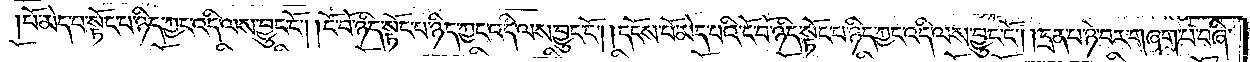པོ་མེད་པ་སྟོང་པ་ཉིད་ཀྱང་འདི་ལས་བྱུང་ངོ༌། །ངོ་བོ་ཉིད་སྟོང་པ་ཉིད་ཀྱང་འདི་ལས་བྱུང་ངོ༌། །དངོས་པོ་མེད་པའི་ངོ་བོ་ཉིད་སྟོང་པ་ཉིད་ཀྱང་འདི་ལས་བྱུང་ངོ༌། །དྲན་པ་ཉེ་བར་བཞག་པ་བཞི་
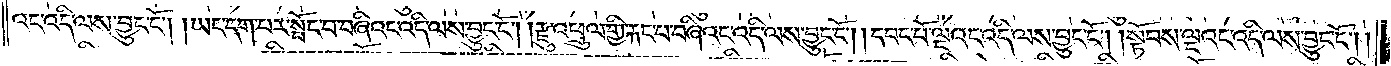འང་འདི་ལས་བྱུང་ངོ༌། །ཡང་དག་པར་སྤོང་བ་བཞིའང་འདི་ལས་བྱུང་ངོ༌། །རྫུ་འཕྲུལ་གྱི་རྐང་པ་བཞིའང་འདི་ལས་བྱུང་ངོ༌། །དབང་པོ་ལྔའང་འདི་ལས་བྱུང་ངོ༌། །སྟོབས་ལྔའང་འདི་ལས་བྱུང་ངོ༌། །
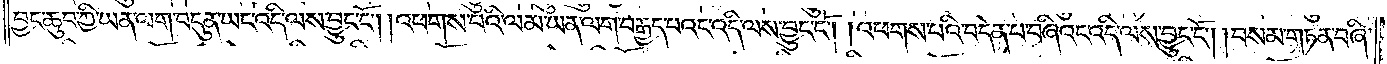བྱང་ཆུབ་ཀྱི་ཡན་ལག་བདུན་ཡང་འདི་ལས་བྱུང་ངོ༌། །འཕགས་པའི་ལམ་ཡན་ལག་བརྒྱད་པའང་འདི་ལས་བྱུང་ངོ༌། །འཕགས་པའི་བདེན་པ་བཞིའང་འདི་ལས་བྱུང་ངོ༌། །བསམ་གཏན་བཞི་
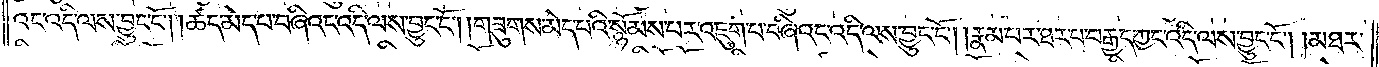འང་འདི་ལས་བྱུང་ངོ༌། །ཚད་མེད་པ་བཞིའང་འདི་ལས་བྱུང་ངོ༌། །གཟུགས་མེད་པའི་སྙོམས་པར་འཇུག་པ་བཞིའང་འདི་ལས་བྱུང་ངོ༌། །རྣམ་པར་ཐར་པ་བརྒྱད་ཀྱང་འདི་ལས་བྱུང་ངོ༌། །མཐར་
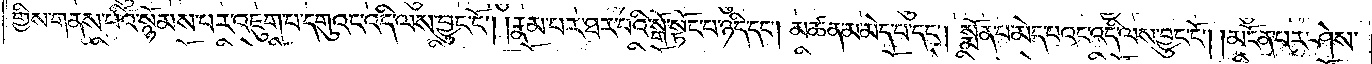གྱིས་གནས་པའི་སྙོམས་པར་འཇུག་པ་དགུའང་འདི་ལས་བྱུང་ངོ༌། །རྣམ་པར་ཐར་པའི་སྒོ་སྟོང་པ་ཉིད་དང༌། མཚན་མ་མེད་པ་དང༌། སྨོན་པ་མེད་པའང་འདི་ལས་བྱུང་ངོ༌། །མངོན་པར་ཤེས་
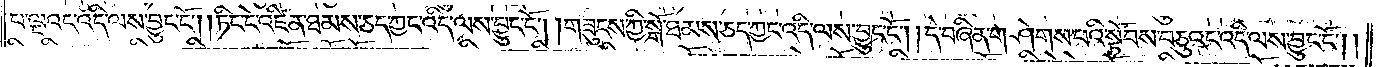པ་ལྔའང་འདི་ལས་བྱུང་ངོ༌། །ཏིང་ངེ་འཛིན་ཐམས་ཅད་ཀྱང་འདི་ལས་བྱུང་ངོ༌། །གཟུངས་ཀྱི་སྒོ་ཐམས་ཅད་ཀྱང་འདི་ལས་བྱུང་ངོ༌། །དེ་བཞིན་གཤེགས་པའི་སྟོབས་བཅུའང་འདི་ལས་བྱུང་ངོ༌། །
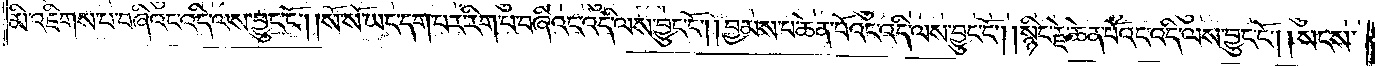མི་འཇིགས་པ་བཞིའང་འདི་ལས་བྱུང་ངོ༌། །སོ་སོ་ཡང་དག་པར་རིག་པ་བཞིའང་འདི་ལས་བྱུང་ངོ༌། །བྱམས་པ་ཆེན་པོའང་འདི་ལས་བྱུང་ངོ༌། །སྙིང་རྗེ་ཆེན་པོའང་འདི་ལས་བྱུང་ངོ༌། །སངས་
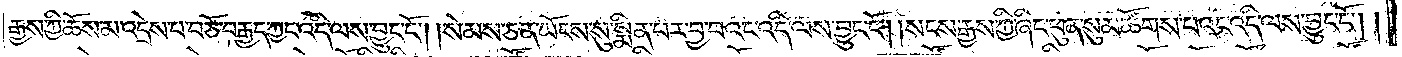རྒྱས་ཀྱི་ཆོས་མ་འདྲེས་པ་བཅོ་བརྒྱད་ཀྱང་འདི་ལས་བྱུང་ངོ༌། །སེམས་ཅན་ཡོངས་སུ་སྨིན་པར་བྱ་བའང་འདི་ལས་བྱུང་ངོ༌། །སངས་རྒྱས་ཀྱི་ཞིང་ཕུན་སུམ་ཚོགས་པའང་འདི་ལས་བྱུང་ངོ༌༎
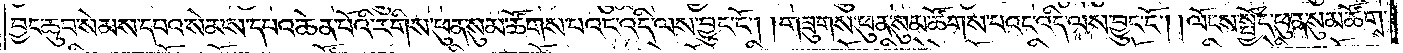བྱང་ཆུབ་སེམས་དཔའ་སེམས་དཔའ་ཆེན་པོའི་རིགས་ཕུན་སུམ་ཚོགས་པའང་འདི་ལས་བྱུང་ངོ༌། །གཟུགས་ཕུན་སུམ་ཚོགས་པའང་འདི་ལས་བྱུང་ངོ༌། །ལོངས་སྤྱོད་ཕུན་སུམ་ཚོགས་
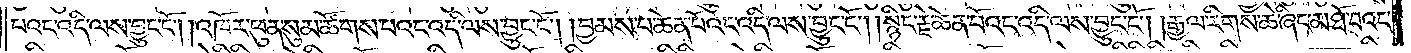པའང་འདི་ལས་བྱུང་ངོ༌། །འཁོར་ཕུན་སུམ་ཚོགས་པའང་འདི་ལས་བྱུང་ངོ༌། །བྱམས་པ་ཆེན་པོའང་འདི་ལས་བྱུང་ངོ༌། །སྙིང་རྗེ་ཆེན་པོའང་འདི་ལས་བྱུང་ངོ༌། །རྒྱལ་རིགས་ཆེ་ཞིང་མཐོ་བའང་
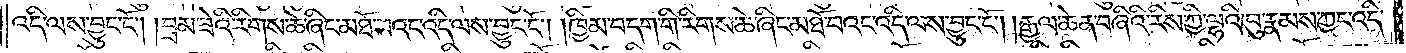འདི་ལས་བྱུང་ངོ༌། །བྲམ་ཟེའི་རིགས་ཆེ་ཞིང་མཐོ་བའང་འདི་ལས་བྱུང་ངོ༌། །ཁྱིམ་བདག་གི་རིགས་ཆེ་ཞིང་མཐོ་བའང་འདི་ལས་བྱུང་ངོ༌། །རྒྱལ་ཆེན་བཞིའི་རིས་ཀྱི་ལྷའི་བུ་རྣམས་ཀྱང་འདི་
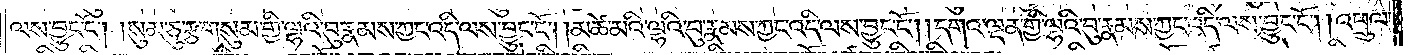ལས་བྱུང་ངོ༌། །སུམ་ཅུ་རྩ་གསུམ་གྱི་ལྷའི་བུ་རྣམས་ཀྱང་འདི་ལས་བྱུང་ངོ༌། །མཚེ་མའི་ལྷའི་བུ་རྣམས་ཀྱང་འདི་ལས་བྱུང་ངོ༌། །དགའ་ལྡན་གྱི་ལྷའི་བུ་རྣམས་ཀྱང་འདི་ལས་བྱུང་ངོ༌། །འཕྲུལ་
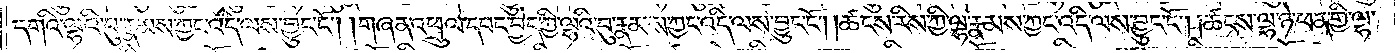དགའི་ལྷའི་བུ་རྣམས་ཀྱང་འདི་ལས་བྱུང་ངོ༌། །གཞན་འཕྲུལ་དབང་བྱེད་ཀྱི་ལྷའི་བུ་རྣམས་ཀྱང་འདི་ལས་བྱུང་ངོ༌། །ཚངས་རིས་ཀྱི་ལྷ་རྣམས་ཀྱང་འདི་ལས་བྱུང་ངོ༌། །ཚངས་ལྷ་ཉེ་ཕན་གྱི་ལྷ་
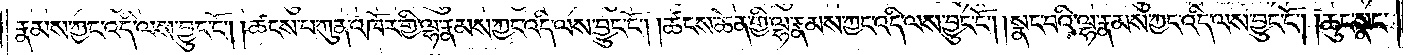རྣམས་ཀྱང་འདི་ལས་བྱུང་ངོ༌། །ཚངས་པ་ཀུན་འཁོར་གྱི་ལྷ་རྣམས་ཀྱང་འདི་ལས་བྱུང་ངོ༌། །ཚངས་ཆེན་གྱི་ལྷ་རྣམས་ཀྱང་འདི་ལས་བྱུང་ངོ༌༎ སྣང་བའི་ལྷ་རྣམས་ཀྱང་འདི་ལས་བྱུང་ངོ༌། །ཆུང་སྣང་
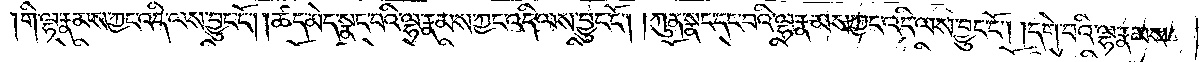གི་ལྷ་རྣམས་ཀྱང་འདི་ལས་བྱུང་ངོ༌། །ཚད་མེད་སྣང་བའི་ལྷ་རྣམས་ཀྱང་འདི་ལས་བྱུང་ངོ༌། །ཀུན་སྣང་དང་བའི་ལྷ་རྣམས་ཀྱང་འདི་ལས་བྱུང་ངོ༌། །དགེ་བའི་ལྷ་རྣམས་
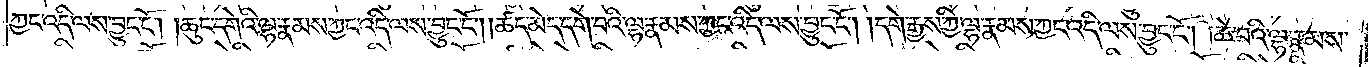ཀྱང་འདི་ལས་བྱུང་ངོ༌། །ཆུང་དགེའི་ལྷ་རྣམས་ཀྱང་འདི་ལས་བྱུང་ངོ༌། །ཚད་མེད་དགེ་བའི་ལྷ་རྣམས་ཀྱང་འདི་ལས་བྱུང་ངོ༌༎ དགེ་རྒྱས་ཀྱི་ལྷ་རྣམས་ཀྱང་འདི་ལས་བྱུང་ངོ༌། །ཆེ་བའི་ལྷ་རྣམས་
